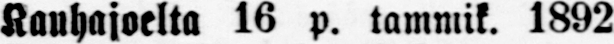Kauhajoelta 16 p. tamniik. 1892.
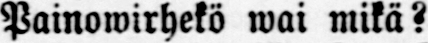Painowirhekö wai mikä?
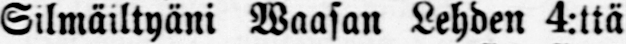Silmäiltyäni Waasan Lehden 4:ttä
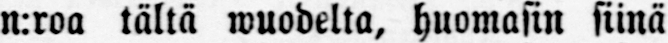n:roa tältä wuodelta, huomasin siinä
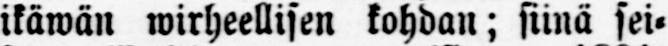ikäwän wirheellisen kohdan; siinä sei-
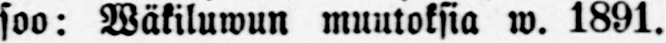soo: Wäkiluwun muutoksia w. 1891.
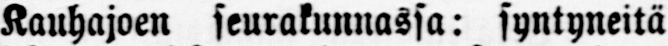Kauhajoen seurakunnassa: syntyneitä
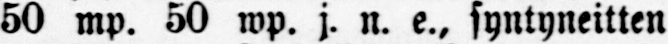50 mp. 50 mp. j. n. e., syntyneitten
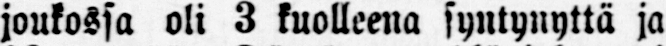joukossa oli 3 kuolleena syntynyttä ja
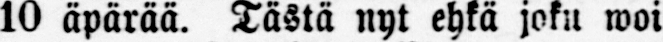10 äpärää. Tästä nyt ehkä joku woi
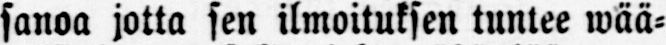sanoa jotta sen ilmoituksen tuntee wää-
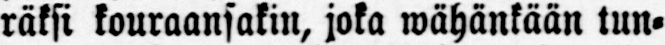räksi kouraansakin, joka wähänkään tun-
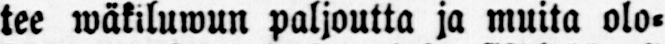tee wäkiluwun paljoutta ja muita olo-
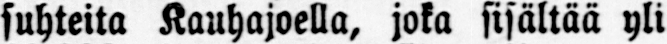suhteita Kauhajoella, joka sisältää yli
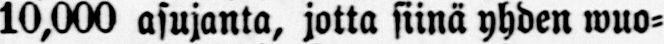10,000 asujanta, jotta siinä yhden wuo-
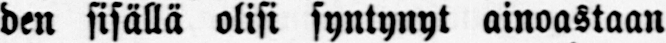den sisällä olisi syntynyt ainoastaan
